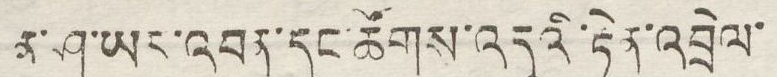ན་ཤ་ཡར་འབན་དུང་ཚོགས་འདུའི་རྟེན་འབྲེལ་
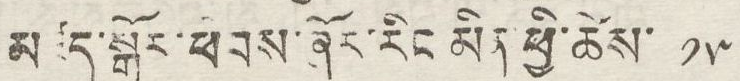མཛད་སྒོར་ཕེབས་ཞོར་རིང་མིན་ཕྱི་ཚེས་ ༡༥
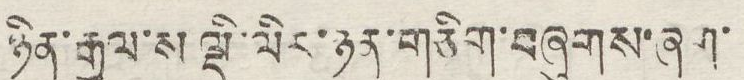ཉིན་རྒྱལ་ས་ལྡི་ལིར་ཉན་གཅིག་བཞུགས་ཞག་
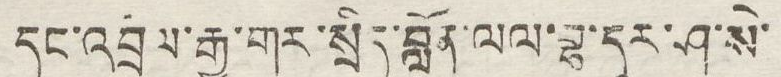དང་འབྲེལ་རྒྱ་གར་སྲིད་བློན་ལལ་བྷ་དུར་ཤ་སེ་
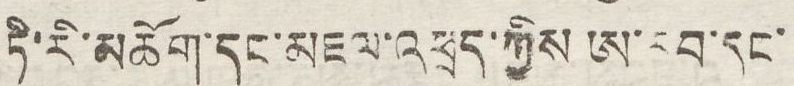ཏི་རི་མཆོག་དང་མཇལ་འཕྲད་ཀྱིས ཨ་རབ་དང་
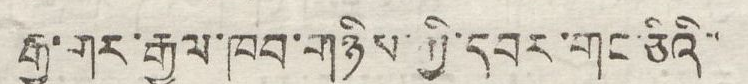རྒྱ་གར་རྒྱལ་ཁབ་གཉིས་ཀྱི་དབར་དང་ཅིའི་
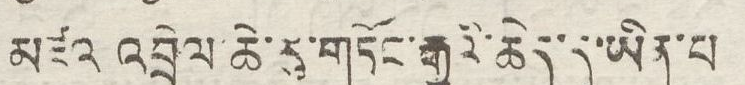མཛའ འབྲེལ་ཆེ་རུ་གཏོང་རྒྱུའི་ཆེད་དུ་ཡིན་པ
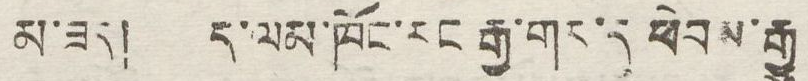མ་ཟད། ད་ལམ་ཁོང་རང རྒྱ་གར་དུ ཕེབས་རྒྱུ་
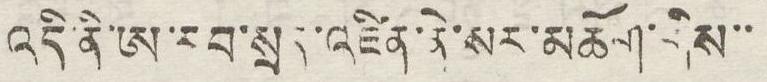འདི་ནི་ཨ་རབ་སྲན་འཛིན་ནེ་སར་མཆོག་གིས་་
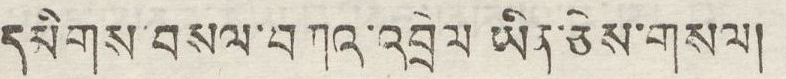དམིགས་བསལ་བཀའ་འབྲེལ ཡིན་ཅེས་གསལ།
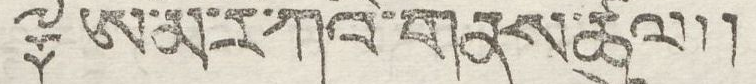༈ ཨ་མི་རི་ཀའི་གནས་ཚུལ།།
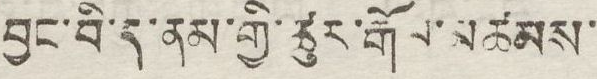བྱང་བི་ད་ནམ་གྱི་ཚུར་རྒོལ་མཚམས་
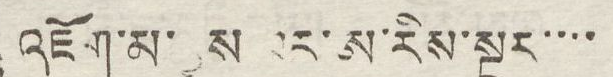འཇོག་མ་བྱས་ཐར་ཨ་རིས་སྔར་་་་
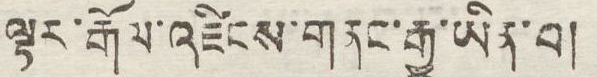ལྟར་རྒོལ་འཛིངས་གནང་རྒྱུ་ཡིན་པ།
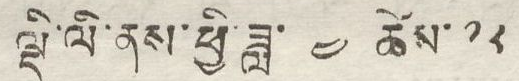ལྡི་ལི་ནས་ཕྱི་ཟླ་ ༤ ཚེས་༡༢
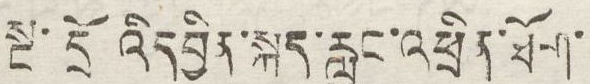སྔ་དྲོ འིདབྱིན་སྐད་རླུང་འཕྲིན་ཐོག་
